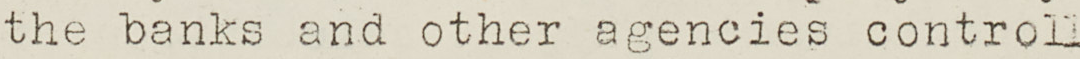the banks and other agences controll
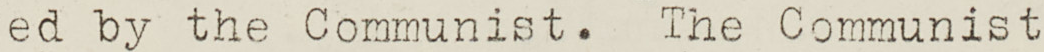ed by the Communist. The Communist
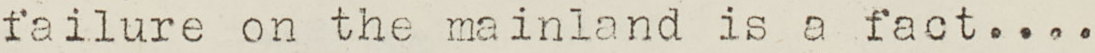failure on the mainland is a fact....
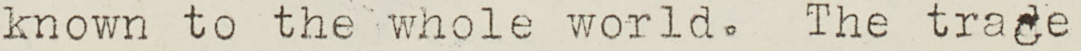known to the whole world. The trage
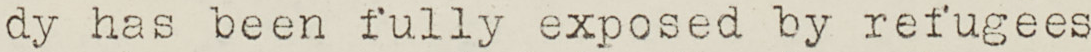dy has been fully exposed by refugees
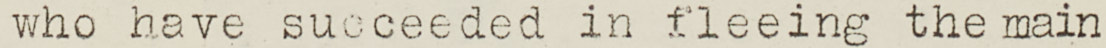who have succeeded in fleeing the main
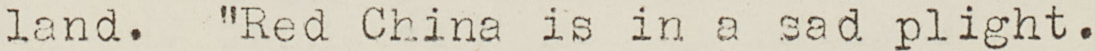land. "Red China is in a sad plight.
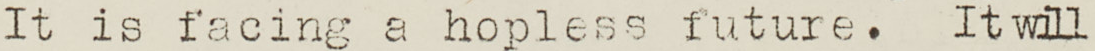It is facing a nopless future. It will
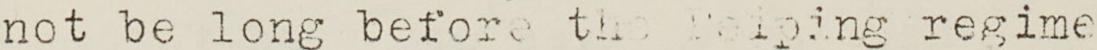not be long before thing regime
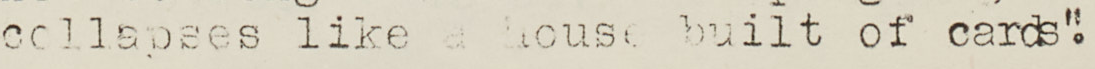collapses like a house built of cards".
